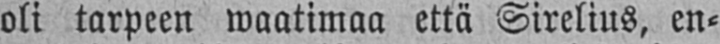oli tarpeen waatimaa että Sirelius, en-
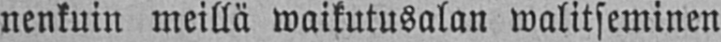nenkuin meillä waikutusalan walitseminen
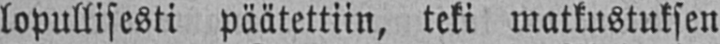lopullisesti päätettiin, teki matkustuksen
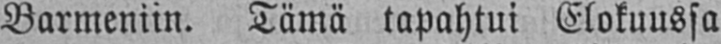Barmeniin. Tämä tapahtui Elokuussa
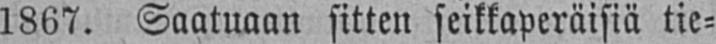1867. Saatuaan sitten seikkaperäisiä tie-
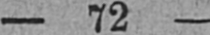— 72 —
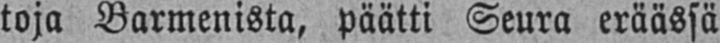toja Barmenista, päätti Seura eräässä
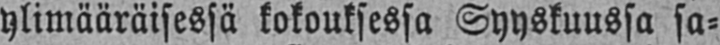ylimääräisessä kokouksessa Syyskuussa sa-
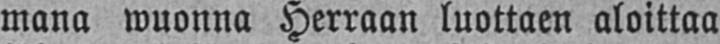mana wuonna Herraan luottaen aloittaa
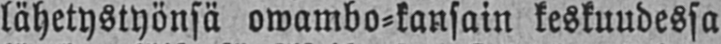lähetystyönsä owambo-kansain keskuudessa
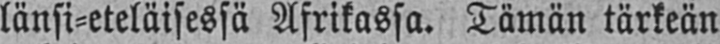länsi-eteläisessä Afrikassa. Tämän tärkeän
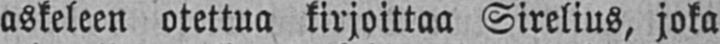askeleen otettua kirjoittaa Sirelius, joka
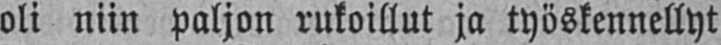oli niin paljon rukoillut ja työskennellyt
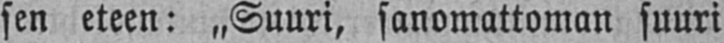sen eteen: „Suuri, sanomattoman suuri
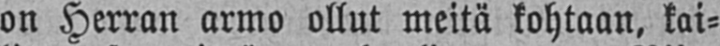on Herran armo ollut meitä kohtaan, kai-
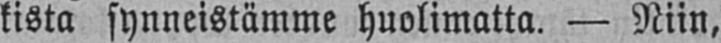kista synneistämme huolimatta. — Niin,
